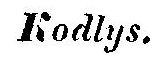Kodlys.
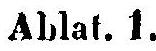Ablat. 1.
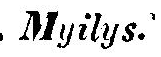Myilys.
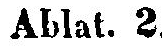Ablat. 2
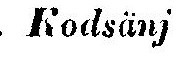Kodsänj
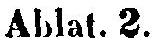Ablat. 2.
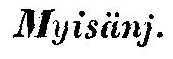Myisänj.
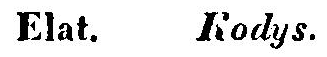Elat. Kodys.
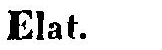Elat.
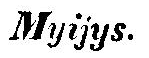Myijys.
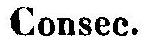Consec.
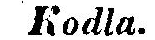Kodla.
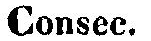Consec.
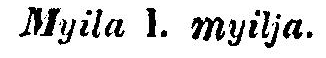Myila l. myilja.
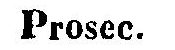Prosec.
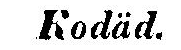Kodäd.
